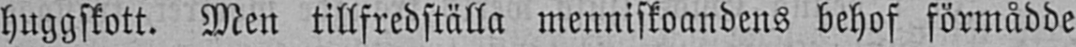huggskott. Men tillfredställa menniskoandens behof förmådde
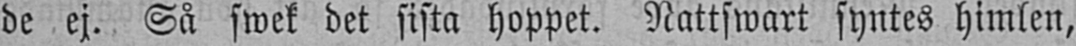de ej. Så swek det sista hoppet. Nattswart syntes himlen,
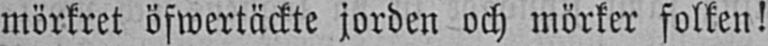mörkret öfwertäckte jorden och mörker folken!
